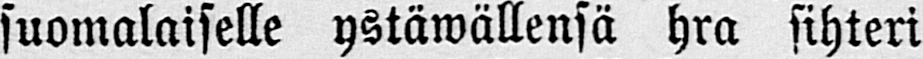suomalaiselle ystäwällensä hra sihteri
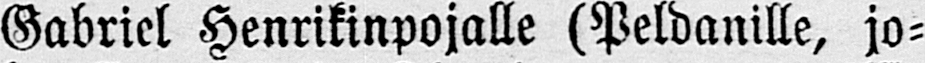Gabriel Henrikinpojalle (Peldanille, jo-
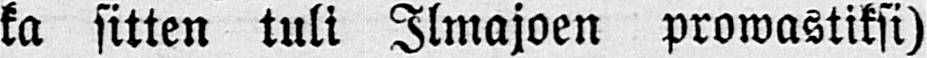ka sitten tuli Ilmajoen prowastiksi)
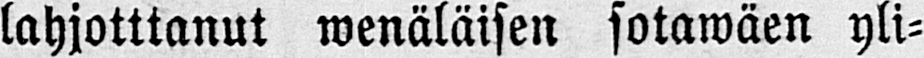lahjotttanut wenäläisen sotawäen yli-
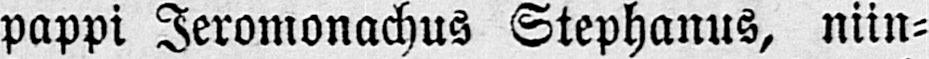pappi Jeromonachus Stephanus, niin-
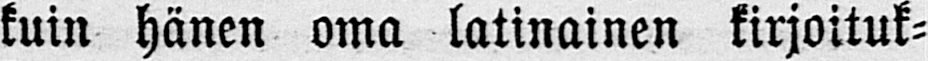kuin hänen oma latinainen kirjoituk-
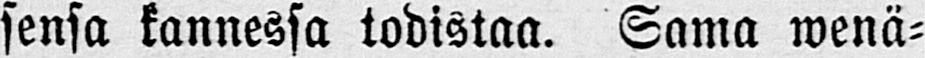sensa kannessa todistaa. Sama wenä-
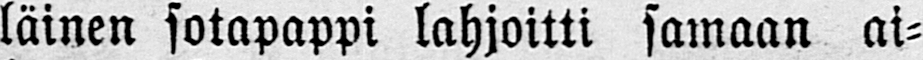läinen sotapappi lahjoitti samaan ai-
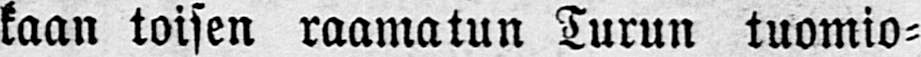kaan toisen raamatun Turun tuomio-
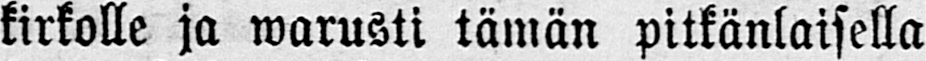kirkolle ja warusti tämän pitkänlaisella
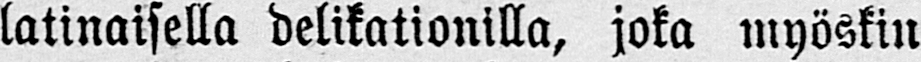latinaisella delikationilla, joka myöskin
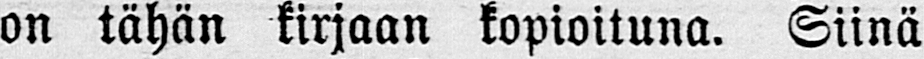on tähän kirjaan kopioituna. Siinä
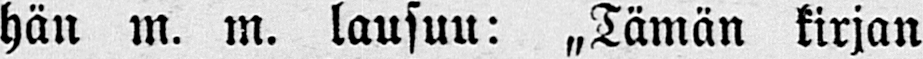hän m. m. lausuu: „Tämän kirjan
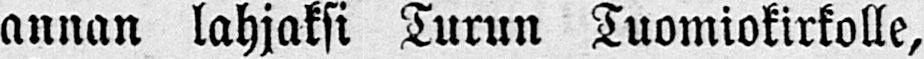annan lahjaksi Turun Tuomiokirkolle,
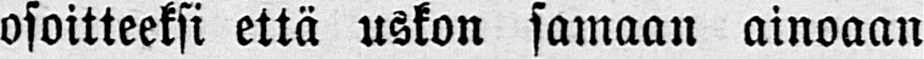osoitteeksi että uskon samaan ainoaan
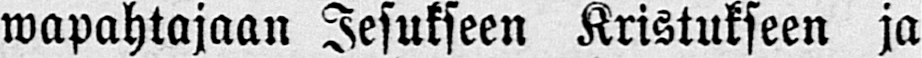wapahtajaan Jesukseen Kristukseen ja
